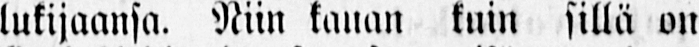lukijaansa. Niin kauan kuin sillä on
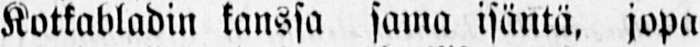Kotkabladin kanssa sama isäntä, jopa
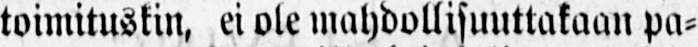toimituskin, ei ole mahdollisuuttakaan pa-
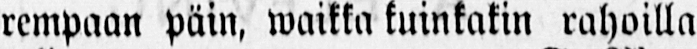rempaan päin, waikka kuinkakin rahoilla
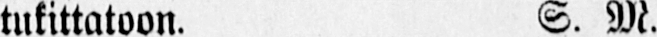tukittatoon. S. M.
